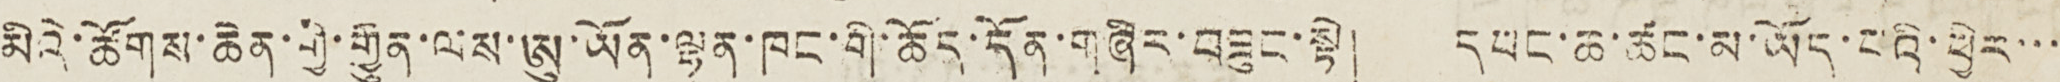མིའི་ཚོགས་ཆེན་གྱི་རྒྱུན་ལས་ཨུ་ཡོན་ལྷན་ཁང་གི་ཆོད་དོན་གཞིར་བཟུང་སྟེ། དབང་ཆ་ཚང་མ་ཡོད་པའི་ཕྱིར་་་་
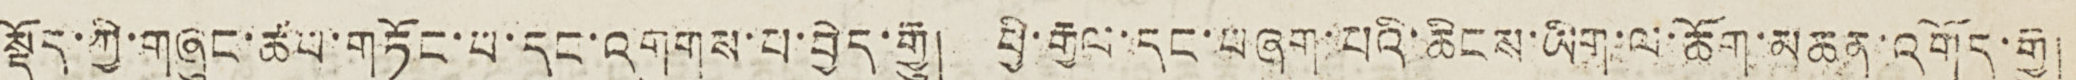སྡོད་ཀྱི་གཞུང་ཚབ་གཏོང་བ་དང་འགུགས་པ་བྱེད་རྒྱུ། ཕྱི་རྒྱལ་དང་བཞག་པའི་ཆིངས་ཡིག་ལ་ཆོག་མཆན་འགོད་རྒྱུ།
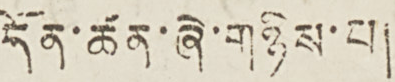དོན་ཚན་ཞེ་གཉིས་པ།
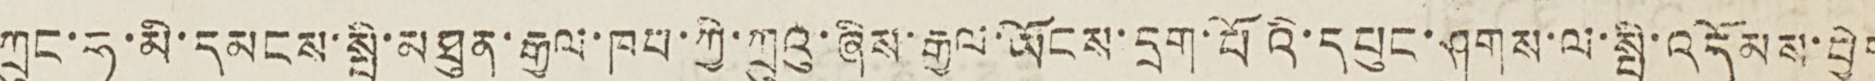ཀྲུང་ཧྭ་མི་དམངས་སྤྱི་མཐུན་རྒྱལ་ཁབ་ཀྱི་ཀྲུའུ་ཞིས་རྒྱལ་ཡོངས་དྲག་པོའི་དཔུང་ཤུགས་ལ་སྤྱི་འདོམས་བྱེད
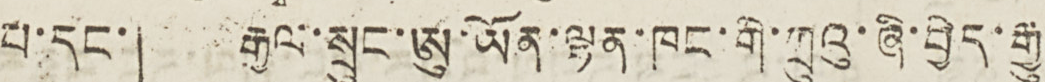པ་དང་། རྒྱལ་སྲུང་ཨུ་ཡོན་ལྷན་ཁང་གི་ཀྲུའུ་ཞི་བྱེད་རྒྱུ།
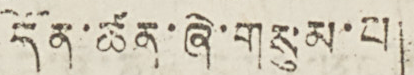དོན་ཚན་ཞེ་གསུམ་པ།
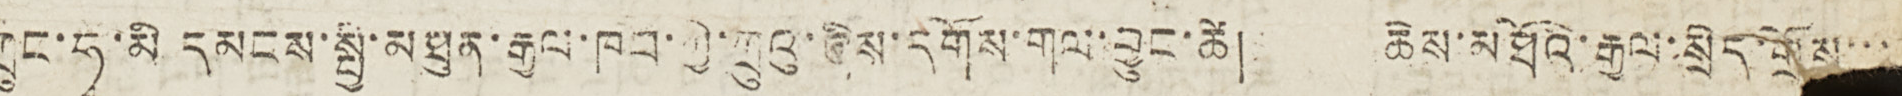ཀྲུང་ཧྭ་མི་དམངས་སྤྱི་མཐུན་རྒྱལ་ཁབ་ཀྱི་ཀྲུའུ་ཞིས་དགོས་གལ་བྱུང་ཚེ། ཆེས་མཐོའི་རྒྱལ་སྲིད་གྲོས་་་
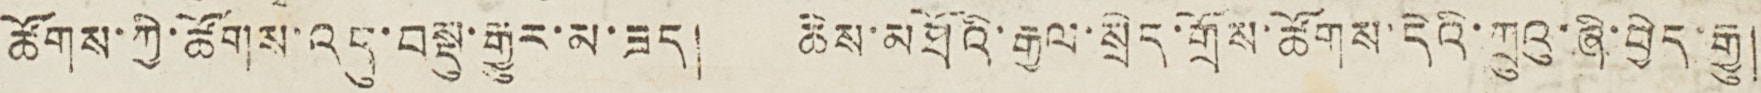ཚོགས་ཀྱི་ཚོགས་འདུ་བསྡུ་རྒྱུར་མ་ཟད། ཆེས་མཐོའི་རྒྱལ་སྲིད་གྲོས་ཚོགས་དེའི་ཀྲུའུ་ཞི་བྱེད་རྒྱུ།
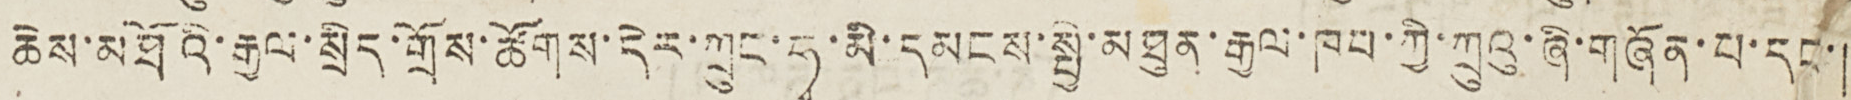ཆེས་མཐོའི་རྒྱལ་སྲིད་གྲོས་ཚོགས་དེར་ཀྲུང་ཧྭ་མི་དམངས་སྤྱི་མཐུན་རྒྱལ་ཁབ་ཀྱི་ཀྲུའུ་ཞི་གཞོན་པ་དང་།
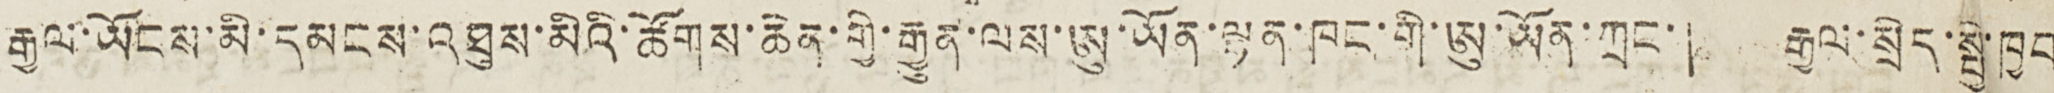རྒྱལ་ཡོངས་མི་དམངས་འཐུས་མིའི་ཚོགས་ཆེན་གྱི་རྒྱུན་ལས་ཨུ་ཡོན་ལྷན་ཁང་གི་ཨུ་ཡོན་ཀྲང་། རྒྱལ་སྲིད་སྤྱི་ཁྱབ
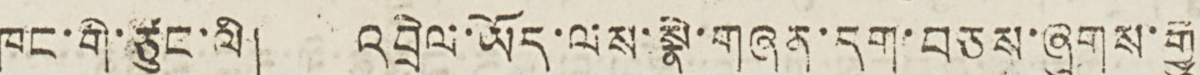ཁང་གི་ཙུང་ལི། འབྲེལ་ཡོད་ལས་སྣེ་གཞན་དག་བཅས་ཞུགས་རྒྱུ།
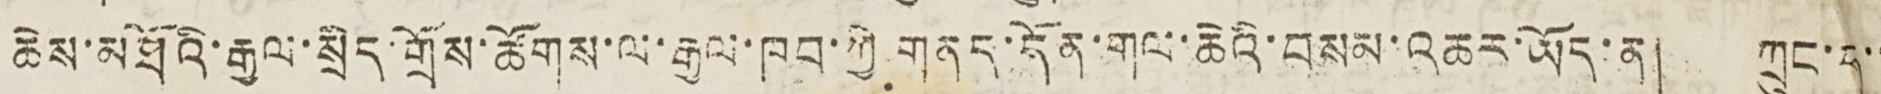ཆེས་མཐོའི་རྒྱལ་སྲིད་གྲོས་ཚོགས་ལ་རྒྱལ་ཁབ་ཀྱི གནད་དོན་གལ་ཆེའི་བསམ་འཆར་ཡོད་ན། ཀྲུང་ཧྭ་་
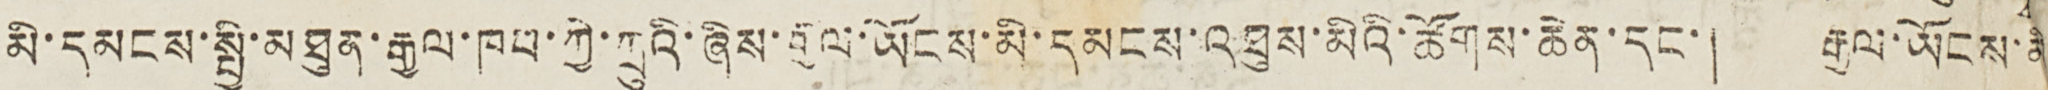མི་དམངས་སྤྱི་མཐུན་རྒྱལ་ཁབ་ཀྱི་ཀྲུའི་ཞི་རྒྱལ་ཡོངས་མི་དམངས་འཐུས་མིའི་ཚོགས་ཆེན་དང་། རྒྱལ་ཡོངས་མི་
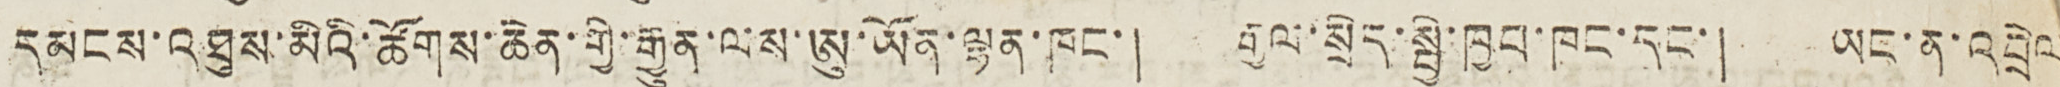དམངས་འཐུས་མིའི་ཚོགས་ཆེན་གྱི་རྒྱུན་ལས་ཨུ་ཡོན་ལྷན་ཁང་། རྒྱལ་སྲིད་སྤྱི་ཁྱབ་ཁང་དང་། ཡང་ན་འབྲེལ་
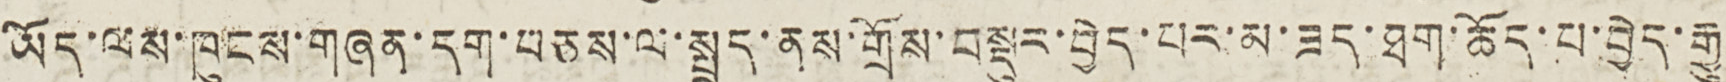ཡོད་ལས་ཁུངས་གཞན་དག་བཅས་ལ་སྤྲད་ནས་གྲོས་བསྡུར་བྱེད་པར་མ་ཟད་ཐག་ཆོད་པ་བྱེད་རྒྱུ།
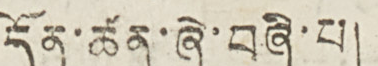དོན་ཚན་ཞེ་བཞི་པ།
